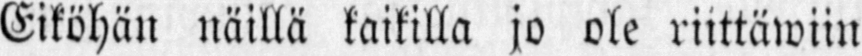Eiköhän näillä kaikilla jo ole riittäwiin
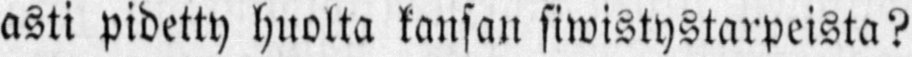asti pidetty huolta kansan siwistystarpeista?
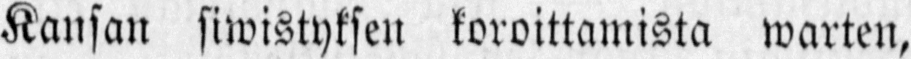Kansan siwistyksen koroittamista warten,
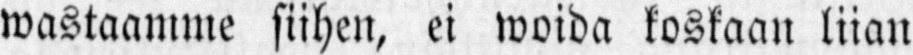wastaamme siihen, ei woida koskaan liian
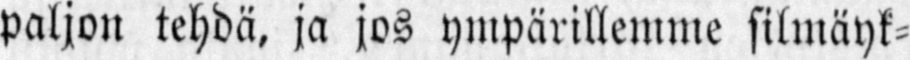paljon tehdä, ja jos ympärillemme silmäyk-
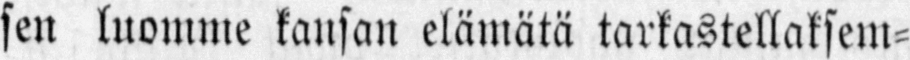sen luomme kansan elämätä tarkastellaksem-
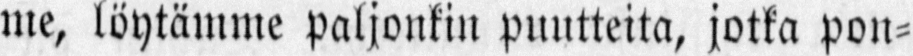me, köytämme paljonkin puutteita, jotka pon-
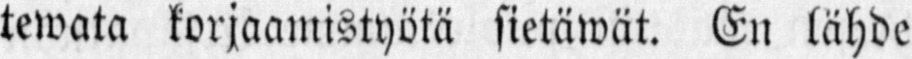tewata korjaamistyötä sietäwät. En lähde
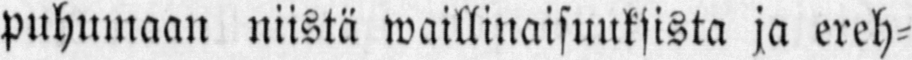puhumaan niistä waillinaisuuksista ja ereh-
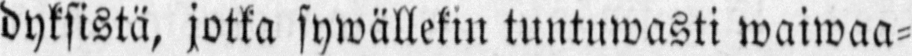dyksistä, jotka sywällekin tuntuwasti waiwaa-
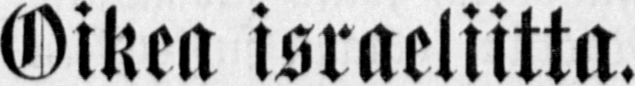Oikea israeliitta.
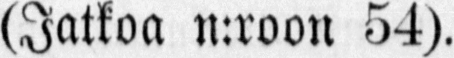(Jatkoa n:roon 54).
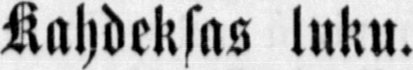Kahdeksas luku.
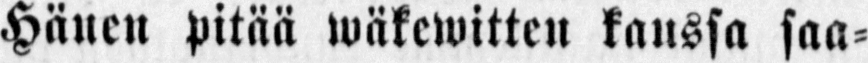Hänen pitää wäkewitten kaussa saa-
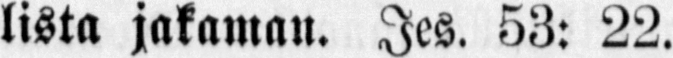lista jakaman. Jes. 53: 22.
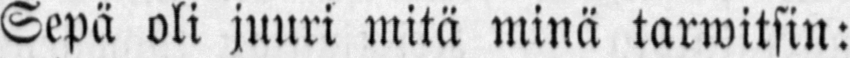Sepä oli juuri mitä minä tarwitsin:
